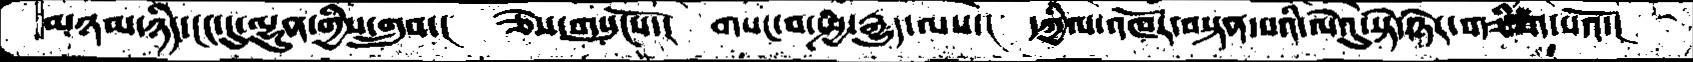མཉམ་ཉིད་ངང་དུ་ལྷུན་གྱིས་གྲུབ་།  ཅེས་གསུངསོ་།  གསང་བ་སྤྱི་རྒྱུད་ལས་།  དཀྱིལ་འཁོར་བསྟན་པའི་ལེའུ་སྟེ་ཉེར་གཅིག་པའོ་།
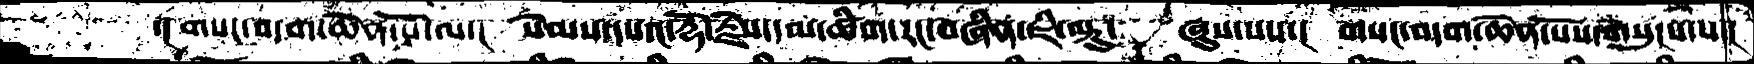་།གསང་བདག་ཆེན་པོ་ལ་།  སེམས་དཔའ་རྡོ་རྗེས་དམ་ཚིག་རང་བཞིན་ཇི་ལྟུ་  ཞུས་པས་།  གསང་བདག་ཆེན་པོས་གསུངས་པ་།
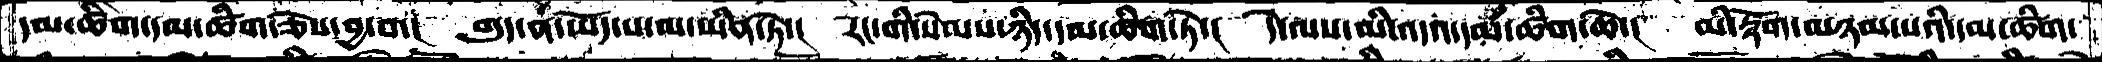དམ་ཚིག་དམ་ཚིག་ཅེས་བྱ་བ་།  གུད་ན་ཡོད་པ་མ་ཡིན་ཏེ་།  རང་གི་སེམས་ཉིད་དམ་ཚིག་ཏེ་།  དེ་ལས་མི་འདའ་དམ་ཚིག་ཆེ་།  མི་རྟོག་མཉམ་པའི་དམ་ཚིག་
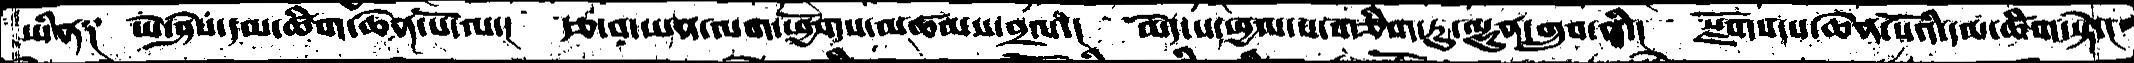ཡིན༑  ཡེ་ཤེསདམ་ཚིག་ཆེན་པོ་ལ་།  རྩ་བ་་ཡན་ལག་ཕྱོགས་མཚམས་བྲལ་།  མེད་པ་ཕྱལ་ས་གཅིག་ཏུ་ལྷུན་གྲུབ་ནི་།  སྫོགས་པ་ཆེནཔོའི་དམ་ཚིག་སྟེ་།
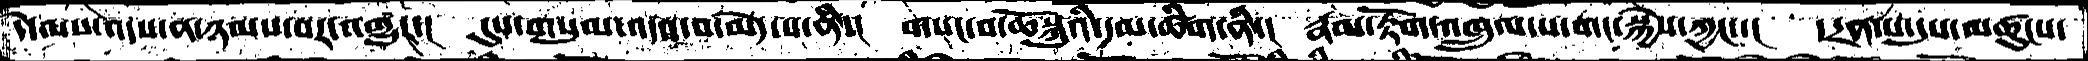དེ་ལས་འདས་ན་ཉམས་པར་འགྱུར་།  དུས་གསུམ་འདའ་བ་མེད་པ་ནི་།  གསང་བ་ཆོསྐུའི་དམ་ཚིག་ནི་།  རྣམ་རྟོག་འཁྲུལ་པ་གང་སྐྱེས་ཀྱང་་།  ་དྲན་པ་དུས་མཚུངས་
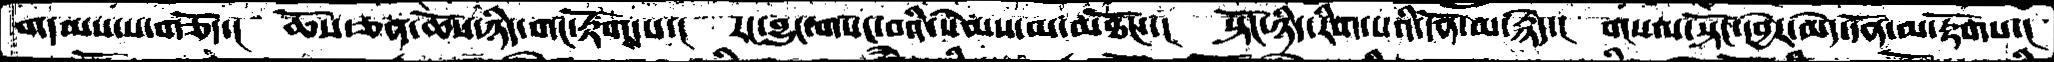གདམས་པ་གཅོད་།  ཆོས་ཅན་ཆོས་ཉིད་གང་རྟོག་པ་།  རང་བྱུང་གསང་བའི་སེམས་མ་མཐོང་་།  སྟོང་ཉིད་རིག་པའི་དོན་མ་རྙེད་།  གསལ་སྟོང་དབྱེར་མེད་དོན་མ་རྟོགས་།
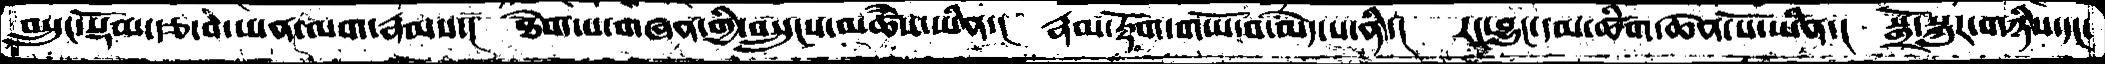བསྲུང་སྡོམ་རྩ་བ་ཡན་ལག་རྣམས་།   ཐེག་པ་གཞན་གྱི་བསྲུངས་མཚཾས་ཡིན་།   རྣམ་རྟོག་གཡོ་བ་མེད་པ་ནི་།  རང་བྱུང་དམ་ཚིག་ཆེན་པོ་ཡིན་།  སྒྲོ་སྐུར་གཉིས་དང་
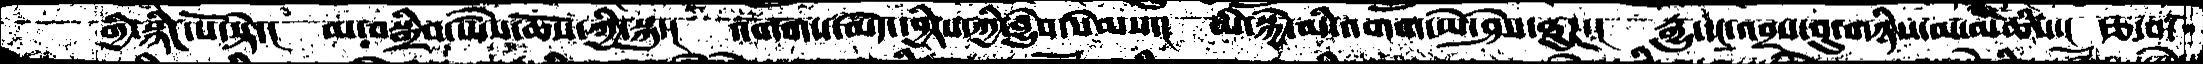གྱི་སྙིང་པོ་སྟེ་།  མ་བསྒྲིབ་ཡཻས་ཆོས་ཀྱི་སྐུ་།   འགགས་མེད་དབྱིངས་ཀྱི་བྱུཾབ་སེམས་།  མི་སྐྱེ་མི་འགག་ཡེ་ཤེས་ཐུཌ་།  རྒྱུ་དང་འབྲས་བུ་གཉིས་མ་མཆིས་།  རྩ་བ་
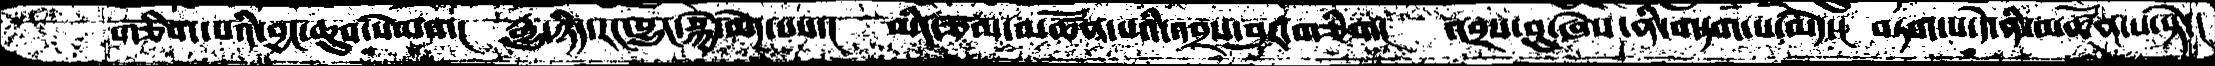གཅིག་པའི་བྱང་ཆུབ་སེམས་།  རྒྱུ་ཉིད་རང་བྱུང་སྐྱེ་མེད་པས་།  མིང་ཙམ་མཚོན་པའི་འབྲས་བུར་གཅིག།  འབྲས་བུ་ཞེས་ནི་བཏག་པ་མེད་།  བཏག་པ་དེ་ནི་མཚོན་པ་སྟེ་།
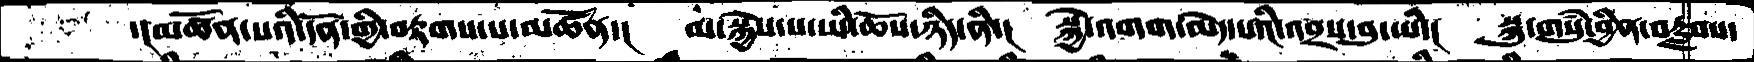་།མཚོན་པའི་དོན་གྱི་བརྟགས་པ་མཚོན་།   མ་སྐྱེས་པ་ཡི་ཆོས་ཉིད་ནི་།  སྐྱེ་འགག་མེད་པའི་འབྲས་བུ་ཡི་།  སྐུ་གསུཾ་བྱིན་བརླབས་
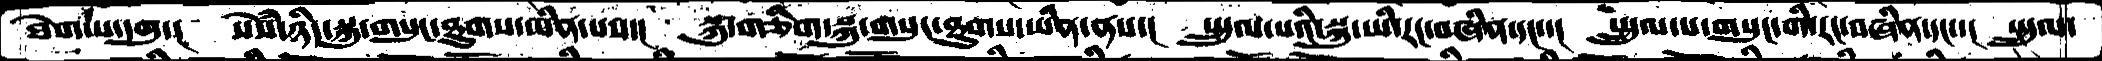ཐེག་པ་དགུ་།  སེཾས་ཉིད་སྐུ་གསུང་ཐུགས་ཡིན་པས་།  སྐུ་གཅིག་སྐུ་གསུང་ཐུགས་ཡིན་ནས་། སྤྲུལ་པའི་སྐུ་ཡི་རང་བཞིན་དང་་།  སྤྲུལ་པའི་གསུང་གི་རང་བཞིན་དང་་།  སྤྲུལ་
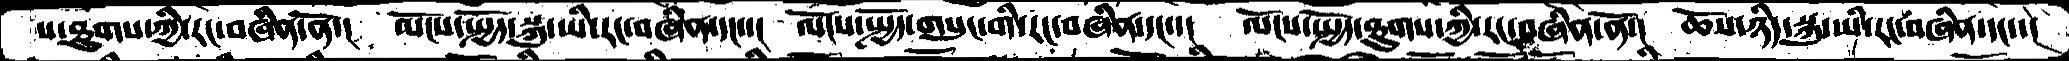པ་ཐུགས་ཀྱི་རང་བཞིན་ནོ་།  ལོངས་སྤྱོད་སྐུ་ཡི་རང་བཞིན་དང་་།  ལོངས་སྤྱོད་གསུང་གི་རང་བཞིན་དང་་།  ལོངས་སྤྱོད་ཐུགས་ཀྱི་རང་བཞིན་ནོ་།  ཆོས་ཉིད་སྐུ་ཡི་རང་བཞིན་དང་་།
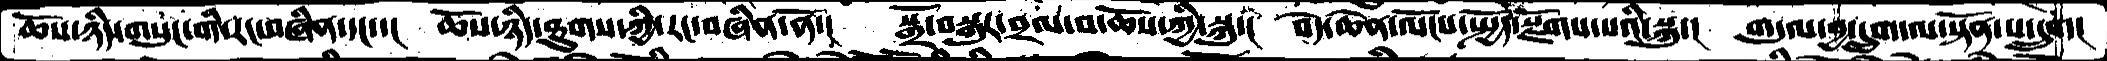ཆོས་ཉིད་གསུང་གི་རང་བཞིན་དང་་། ཆོས་ཉིད་ཐུགས་ཀྱི་རང་བཞིན་ནོ་། སྒྲོ་བསྐུར་བྲལ་བ་ཆོས་ཀྱི་སྐུ་། བདེ་ཆེན་ལོངས་སྤྱོད་སྫོགས་པའི་སྐུ་། གདུལ་བྱ་དྲུག་ལ་སྟོན་པ་དྲུག་།
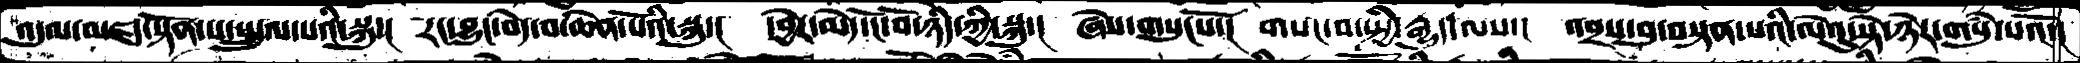འདུལ་མཛད་སྟོན་པ་སྤྲུལ་པའི་སྐུ་།  རང་བྱུང་བདེ་བ་ཆེན་པོའི་སྐུ་།  དབྱེར་མེད་ངོ་བོ་ཉིད་ཀྱི་སྐུ་།  ཞེས་གསུངསོ་།  གསང་བ་སྤྱི་རྒྱུད་ལས་།  འབྲས་བུ་བསྟན་པའི་ལེའུ་སྟེ་ཉེར་གསུཾ་པའོ་།
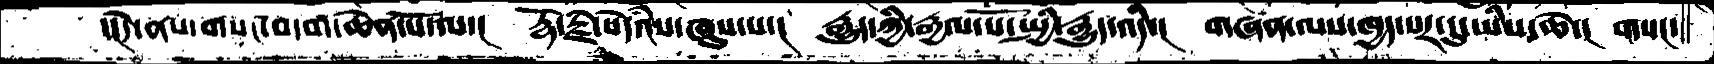་།དེ་ནས་གསང་བདག་ཆེན་པོ་ལ་།  རྡོ་རྗེ་སེདཾའས་ཞུས་པ་།  རྒྱུད་ཀྱི་རྒྱལ་པོ་སྤྱི་རྒྱུད་འདི་།  གཞན་ལས་ཁྱད་པར་དུ་ཡིས་ཆེ་།  གསང་
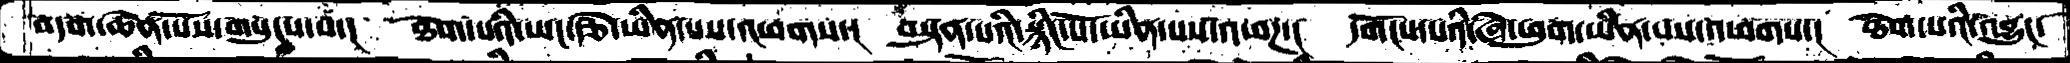བདག་ཆེན་པོས་གསུངས་པ་།  ཐེག་པའི་ཡང་རྩེ་ཡིན་པས་འཕགས་།  བསྟན་པའི་སྙིང་པོ་ཡིན་པས་འཕཌ་།  དགོངས་པའི་ཞེ་ཕུག་་ཡིན་པས་འཕགས་།  ཐེག་པའི་འབྱུང་
